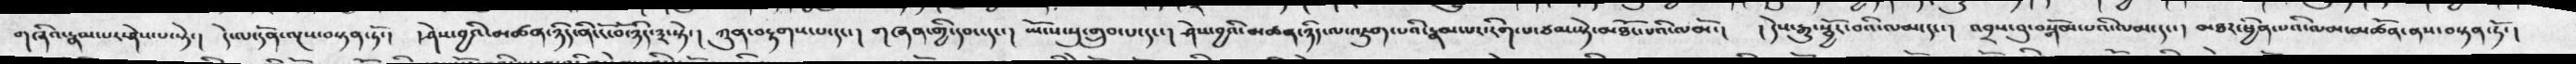གཞའི་རྣམ་པར་ཤེས་སྟེ་།   དེ་ལ་དོན་ལྔས་བསྟན་ཏོ་།  ། ཤེས་བྱའི་མཚན་ཉིད་ནི་ངོ་བོ་ཉིད་༣་སྟེ་།  ཀུན་བཏགས་པ་དང་།  ཡོངས་སུ་གྲུབ་པ་དང་།   ཤེས་བྱའི་མཚན་ཉིད་ལ་འཇུག་པའི་རྣམ་པར་རི་པ་ཙམ་སྟེ་མཐོང་པའི་ལམོ་།   ། དེས་རྒྱུ་སྦྱོང་བའི་ལམ་དང་།   འབྲས་བུ་བསྒོམ་པའི་ལམ་དང་།   མཐར་ཕྱིན་པའི་ལམ་མཚོན་ནས་བསྟན་ཏོ་།
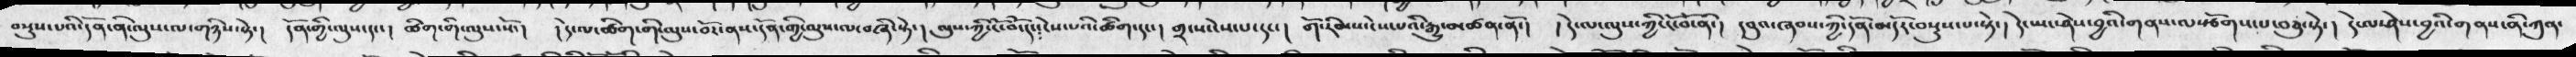བསྡུས་པའི་དོན་ནི་ལུས་ལ་གཉིས་སྟེ་།  དོན་གྱི་ལུས་དང་།  ཚིག་གི་ལུས་སོ་།  ། དེ་ལ་ཚིག་གི་ལུས་བོར་ནས་དོན་གྱི་ལུས་ལ་བཞི་སྟེ་། ལུས་ཀྱི་ངོ་བོ་དང་ངེས་པའི་ཚིག་དང་། གྲངས་ངེས་པ་དང་། གོ་རིམས་ངེས་པའི་རྒྱུ་མཚན་ནོ་། །དེ་ལ་ལུས་ཀྱི་ངོ་བོ་ནི་།  དབུའ་ཞབས་ཀྱི་དོན་མདོར་བསྡུས་པ་སྟེ་།  དེ་ཡང་ཤེས་བྱའི་གནས་ལ་རྩོགས་པ་བཅུ་སྟེ་།  དེ་ལ་ཤེས་བྱའི་གནས་ནི་ཀུན་
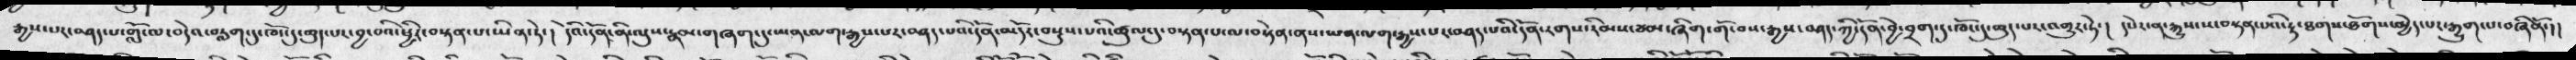རྒྱས་པར་བཤད་པ་གློ་ལ་བདེའ་བརླག་དུ་ཁོང་དུ་ཆུད་པར་བྱ་བའི་སྤྱིར་བསྟན་པ་ཡིན་ཏེ་།  དེའི་དོན་ནི་ལུས་རྣམ་བཞག་དུ་ཡན་ལག་རྒྱས་པར་བཤད་པའི་དོན་མདོར་བསྡུས་པའི་ཚུལ་དུ་བསྟན་པ་ལ་བསྟེན་ནས་ཡན་ལག་རྒྱས་པར་བཤད་པའི་དོན་རགས་རིམས་ཙམ་ཞིག་གོ་བས་རྒྱས་བཤད་ཀྱི་དོན་བྱེ་བྲག་དུ་ཁོང་དུ་ཆུད་པར་འགྱུར་ཏེ་།  དཔེར་ན་རྒྱུས་ས་བསྟན་པའི་རྟ་ཐགས་ཐོགས་མྱེད་པར་རྒྱུག་པ་བཞིནོ་།།
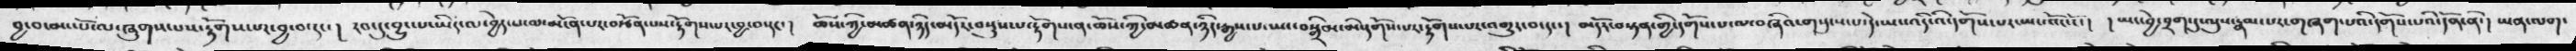བྱ་བ་མང་པོ་ལ་ཞུགས་པས་རྟོགས་པར་བྱ་བ་དང་།  རབ་དུ་བྱུང་པ་ཡིད་ལ་བྱེད་པ་ལ་མངོན་པར་བརྩོན་པས་རྟོགས་པར་བྱ་བ་དང་།  ཆོས་ཀྱི་མཚན་ཉིད་མདོར་བསྡུས་པ་རྟོགས་ན་ཆོས་ཀྱི་མཚན་ཉིད་རྒྱས་པ་ཡང་བསྒྲིམ་མི་དགོས་པར་རྟོགས་པར་འགྱུར་བ་དང་། མདོར་བསྟན་གྱི་དགོས་པ་ལ་བཞིའ་གསུངས་པ་དེ་ཡང་འདི་འི་དགོས་པར་ཡང་འོང་ངོ་། །ཡང་བྱེ་བྲག་དུ་ལུས་རྣམ་པར་གཞག་པའི་དགོས་པའི་དོན་ནོ་། ཡན་ལག་
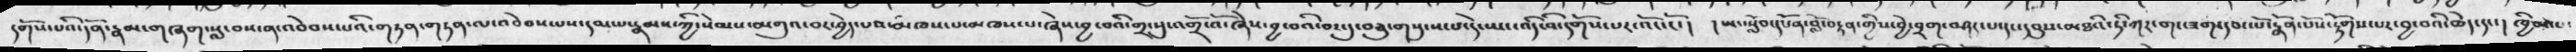དགོས་པའི་དོན་རྣམ་གཞག་སླ་བས་ན་འབེབས་པའི་གཏན་གཏན་ལ་འབེབས་པས་དམ་པ་རྣམས་ཀྱི་སེམས་མགུའ་བར་བྱེད་པའ་མཁས་པ་མཁས་པ་ཞེས་བྱ་བའི་གྲངསུ་འགྲོ་འོ་ཞེས་བྱ་བའི་བར་དུ་བཅུ་གསུངས་པ་དེ་ཡང་འདི་འི་དགོས་པར་འོང་ངོ་། །ཡང་སློན་དཔོན་བློ་བརྟན་གྱིས་བྱེ་བྲག་བཤད་པ་དང་དབུས་མཐའི་ཏི་ཀར་གང་ཟག་དབང་པོ་རྣོན་པོས་རྟོགས་པར་བྱ་བའི་ཆེད་དང་།  ཁྱིམ་པ་
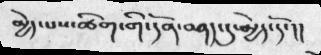མྱེད་པས་ཚིག་གི་དོན་བཤད་དུ་མྱེད་དོ་།།
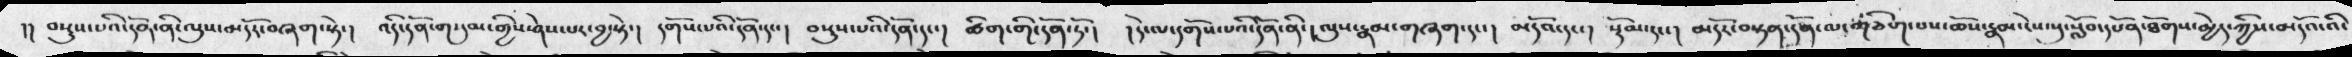བསྡུས་པའི་དོན་ནི་ལུས་མདོར་བཞག་སྟེ་།     འདི་དོན་གསུམ་གྱིས་ཤེ་པར་བྱ་སྟེ་།   དགོས་པའི་དོན་དང་།   བསྡུས་པའི་དོན་དང་།    ཚིག་གི་དོན་ཏོ་།   ། དེ་ལ་དགོས་པའི་དོན་ནི་།  ལུས་རྣམ་གཞག་དང་།    མདོའ་དང་།   སྡོམ་དང་།   མདོར་བསྟན་དོན་གཅིག་པས་ཆོས་རྣམ་ངེས་སུ་སློབ་དཔོན་ཐོགས་མེད་ཀྱིས་མདོའ་འདི་།
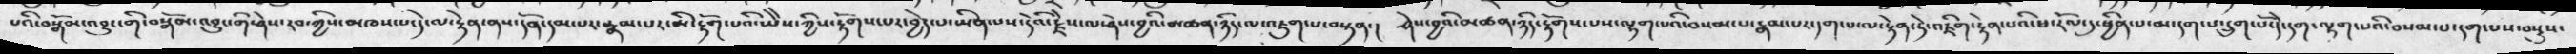པའི་བསྒོམ་འབྱུང་གི་བསྒོམ་འབྱུང་གི་ཤེས་རབ་ཀྱིས་མཁས་པ་དེ་ལ་རྟེན་ནས་དོན་དམ་པར་རྣམ་པར་མི་རྟོཌ་པའི་ཡེེས་ཀྱིས་རྟོགས་པར་བྱེད་པ་ཡིན་པས་དེའི་རྗེས་ལ་ཤེས་བྱའི་མཚན་ཉིད་ལ་འཇུག་པ་བསྟན་།   ཤེས་བྱའི་མཚན་ཉིད་རྟོགས་པས་ལྷག་པའི་བསམ་པ་རྣམ་པར་དག་པ་ལ་རྟེན་ཏེ་འཇིག་རྟེན་པའི་ཕ་རོལ་དུ་ཕྱིན་པ་མ་དག་པ་དྲུག་པོ་དེ་དག་ལྷག་པའི་བསམ་པ་དག་པས་བསྡུས་
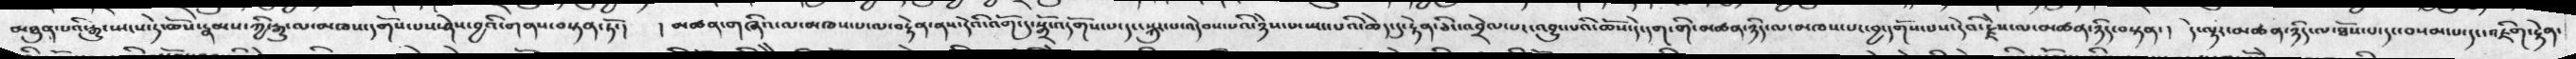མཐུན་པའི་རྒྱུ་སྤངས་ཏེ་ཆོས་རྣམས་ཀྱི་རྒྱུ་ལ་མཁས་དགོས་པས་ཤེས་བྱའི་གནས་བསྟན་ཏོ་།   ། མཚན་གཞིའ་ལ་མཁས་པ་ལ་བརྟེན་ནས་དེའི་འོག་དུ་སྒྲོ་འདོགས་པ་དང་སྐུར་པ་འདེབས་པའི་ཉེས་པ་ཡང་པའི་ཆེད་དུ་རྟེན་ཅིང་འབྲེལ་པར་འབྱུང་པའི་ཆོས་དེ་དག་གི་མཚན་ཉིད་ལ་མཁས་པར་བྱ་དགོས་པས་དེབ་རྗིེས་ལ་མཚན་ཉིད་བསྟན་།  དེ་ལྟར་མཚན་ཉིད་ལ་ཐོས་པ་དང་བསམ་པ་དང་འཇིག་རྟེན་
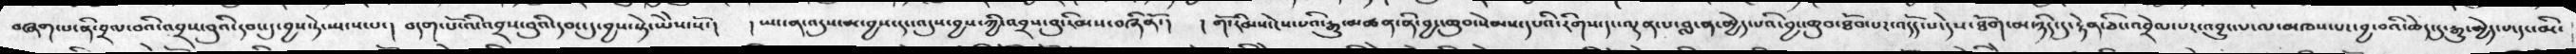བཞག་པ་ནི་བྲལ་བའི་འབྲས་བུའི་དབང་དུ་བྱས་ཏེ་ཡངས་པ་།  བདག་པོ་འདི་འབྲས་བུའི་དབང་དུ་བྱས་སྟེ་ཡེེས་སོ་།   ། ཡང་ན་འདུས་མ་བྱས་དང་འདུས་བྱས་ཀྱི་འབྲས་བུ་རིམས་བཞིནོ་།   ། གོ་རིམས་ངེས་པའི་རྒྱུ་མཚན་ནི་བྱང་ཆུབ་སེམས་དཔའི་རིགས་དང་ལྡན་པ་བླ་ན་མྱེད་པའི་བྱང་ཆུབ་ཐོབ་པར་འདོད་པ་དེས་ཐོག་མ་ཉིད་དུ་རྟེན་ཅིང་འབྲེལ་པར་འབྱུང་པ་ལ་མཁས་པར་བྱ་བའི་ཆེད་དུ་རྒུ་སྤྱོད་པ་དང་མི་
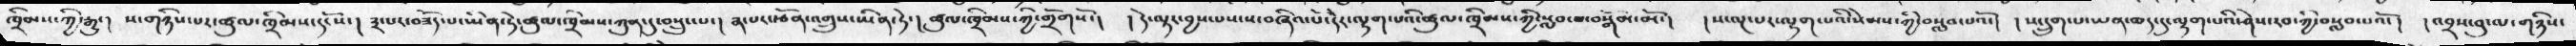ཁྲིམས་ཀྱི་རྒྱུ་།   ས་གཉིས་པར་ཚུལ་ཁྲིམས་དངོས་།  ༣་པར་བཟོད་པ་ཡིན་ཏེ་ཚུལ་ཁྲིམས་ཀུན་དུ་བསྲུང་པ་།   ༤་པར་རྩོན་འགྲུས་ཡིན་ཏེ་།  ཚུལ་ཁྲིམས་ཀྱི་གྲོགསོ་།  ། དེ་ལྟར་བྱས་པས་ས་བཞིའ་པོ་དེེར་ལྷག་པའི་ཚུལ་ཁྲིམས་ཀྱི་སླབ་པ་བསྒོམ་མོ་།  ། ས་ལྔ་པར་ལྷག་པའི་སེམས་ཀྱི་བསླབ་པའོ་།  ། ས་དྲུག་པ་ཡན་ཆད་དུ་ལྷག་པའི་ཤེས་རབ་ཀྱི་བསླབ་པའོ་།  ། འབྲས་བུ་མ་གཉིས་
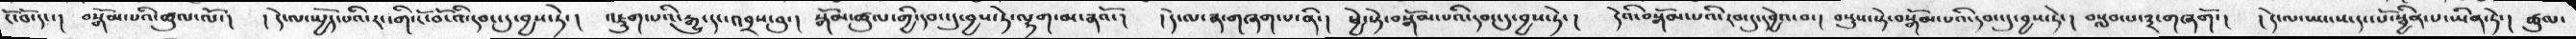ངོ་བོ་དང་།  བསྒོམ་པའི་ཚུལ་ལོ་།  ། དེ་ལ་སྤྱོད་པའི་རང་གི་ངོ་བོ་འི་དབང་དུ་བྱས་ཏེ་།  འཇུག་པའི་རྒྱུ་དང་འབྲས་བུ་། སྒོམ་ཚུལ་གྱི་དབང་དུ་བྱས་ཏེ་ལྷག་མ་ན་འོ་། །དེ་ལ་ན་གཞག་པ་ནི་། ཕྱེ་སྟེ་བསྒོམ་པའི་དབང་དུ་བྱས་ཏེ་། དེའི་བསྒོམ་པའི་རབ་དུ་དབྱེའ་བ་། བསྡུས་སྟེ་བསྒོམ་པའི་དབང་དུ་བྱས་ཏེ་། བསླབ་པ་༣་གཞགོ་། །དེ་ལ་ཡང་ས་དང་པོ་སྦྱིན་པ་ཡིན་ཏེ་། ཚུལ་
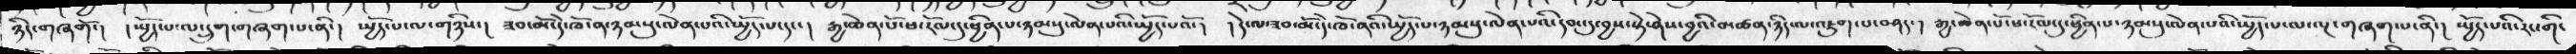ཉིད་གཞགོ་།  །སྤྱོད་པ་དྲུག་གཞག་པ་ནི་། སྤྱོད་པ་ལ་གཉིས་། ཟབ་མོ་དེ་ཁོ་ན་ཉམསུ་ལེན་པའི་སྤྱོད་པ་དང་། རྒྱ་ཆེན་པོ་ཕ་རོལ་དུ་ཕྱིན་པ་ཉམསུ་ལེན་པའི་སྤྱོད་པའོ་། །དེ་ལ་ཟབ་མོ་དེ་ཁོ་ནའི་སྤྱོད་པ་ཉམསུ་ལེན་པའི་དབང་དུ་བྱས་སྟེ་ཤེས་བྱའི་མཚན་ཉིད་ལ་འཇུག་པ་བཤད་། རྒྱ་ཆེན་པོ་ཕ་རོལ་དུ་སྦྱིན་པ་ཉམསུ་ལེན་པའི་སྤྱོད་པ་ལ་ལྔ་གཞག་པ་ནི་། སྤྱོད་པའི་རང་གི་
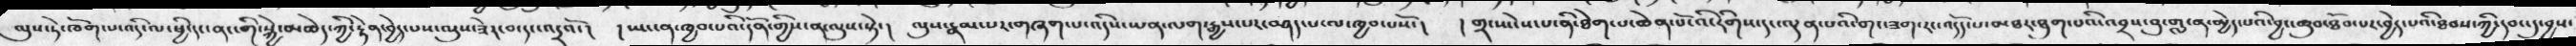ལུས་ཏེ་ཁོག་པ་འདི་ལ་སྦྱི་དང་ནང་གི་སྐྱེ་མཆེད་ཀྱི་རྟེན་བྱེད་པས་ལུས་ཟེར་བ་དང་འདྲའོ་། །ཡང་ན་ཁྱབ་པའི་དོན་གྱིས་ན་ལུས་སྟེ་། ལུས་རྣམ་པར་གཞག་པ་འདིས་ཡན་ལག་རྒྱས་པར་བཤད་པ་ལ་ཁྱབ་པསོ་། །གྲངས་ངེས་པ་ནི་ཐེག་པ་ཆེན་པོ་འི་རིགས་དང་ལྡན་པའི་གང་ཟག་རང་འདོད་པ་མཐར་ཐུག་པའི་འབྲས་བུ་གླ་ན་མྱེད་པའི་བྱང་ཆུབ་ཐོབ་པར་བྱེད་པའི་ཐབས་ཀྱི་དབང་དུ་བྱས་
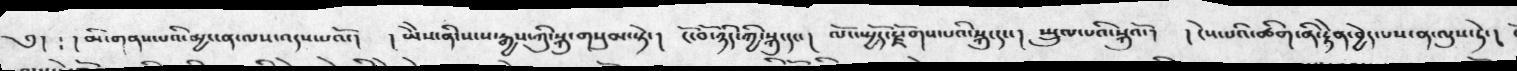༅། ༴ ། མི་གནས་པི་མྱ་ངན་ལས་འདས་པའོ་། ། ཡཻས་ནི་སངས་རྒྱས་ཀྱི་སྐུ་གསུམ་སྟེ་། ངོ་བོ་ཉིད་ཀྱི་སྐུ་དང་། ལོང་སྤྱོད་རྫོགས་པའི་སྐུ་དང་། སྤྲུལ་པའི་སྐུའོ་། །ངེས་པའི་ཚིག་ནི་རྟེན་བྱེད་པས་ན་ལུས་ཏེ་།
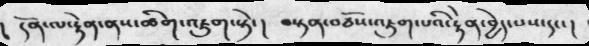།  དོན་ལ་རྟེན་ནས་ཚིག་འཇུག་སྟེ་། བསྟན་བཅོས་འཇུག་པའི་རྟེན་བྱེད་པས་དང་།
